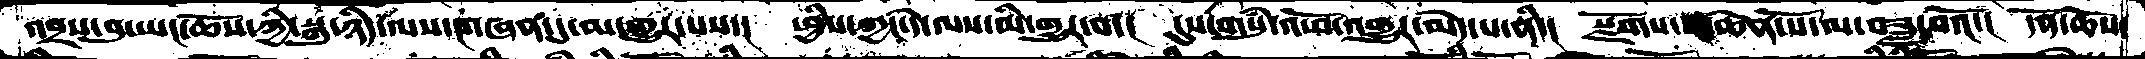འབྲས་བུ་ཡང་ཆོས་ཀྱི་སྐུ་ཉིད་ལས་གཞན་དུ་མ་གྱུར་པས་།  ཕྱིས་ཀྱང་དེ་ལས་མི་གྱུར་པ་།  དུས་གསུཾ་འཕོ་འགྱུར་མེད་པ་ནི་།  སྫོགས་    ཆེན་པོ་ལ་བཟླ་བའོ་།  དོན་ཆོས་
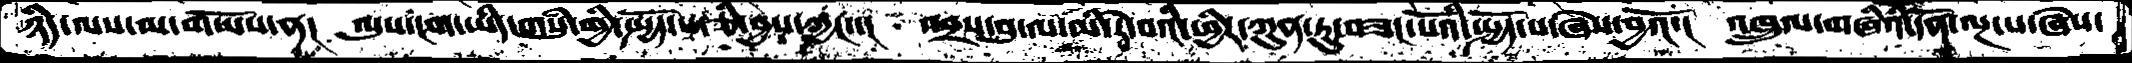ཉིད་ལས་མ་གཡོས་ན།  ལུས་ངག་ཡིད་གསུཾ་གྱི་སྤྱོད་པ་ཅི་བྱས་ཀྱང་་།  འབྲས་བུ་ལ་མི་རེ་བའི་ཕྱིར་ཀུན་ཏུ་བཟང་པོའི་སྤྱོད་པ་ཞེས་བྱའོ་།  འཁྲུལ་གཞིའི་དོན་ལྔ་པ་ཞེས་
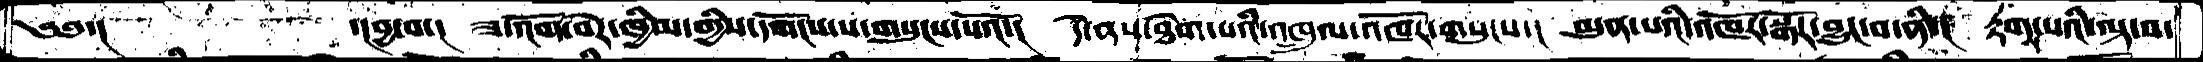༄༅་།       ་།བྱ་བ་།  ཟ་འོག་བེར་ཁྱིམ་གྱིས་དགོངས་པ་གསུངས་པའོ་།  དེ་ནས་ཐེག་པའི་འཁྲུལ་འཁོར་གསུངས་།  མུན་པའི་འཁོར་སྒོར་བྱུང་བ་ནི་།  རྟག་པའི་ལྟ་བ་
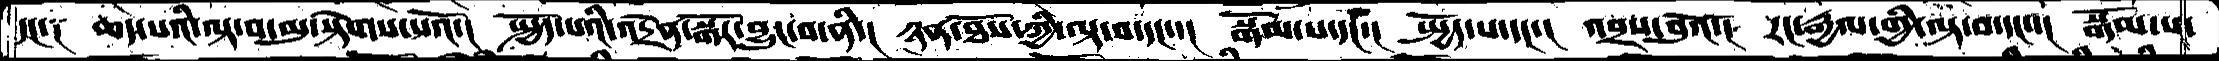དང་༑   ཆད་པའི་ལྟ་བ་མུ་སྟེགས་པའོ་།  སྤྱོད་པའི་འདྲེན་སྒོར་བྱུང་བ་ནི་།  ཉན་ཐོས་ཀྱི་ལྟ་བ་དང་་།  སྒོམ་པ་དང་།  སྤྱོད་པ་དང་།  འབྲས་བུའོ་།  རང་རྒྱལ་གྱི་ལྟ་བ་དང་་།  སྒོམ་པ་
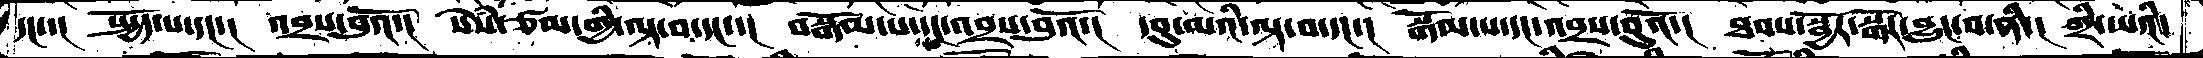དང་་།  སྤྱོད་པ་དང་།  འབྲས་བུའོ་།  སེཾས་ཙམ་གྱི་ལྟ་བ་དང་་།  བསྒོམ་པ་དང་འབྲས་བུའོ་།  དབུ་མའི་ལྟ་བ་དང་།  སྒོམ་པ་དང་འབྲས་བུའོ་།  ཐབས་སྦྱོར་སྒོར་བྱུང་བ་ནི་།  ཀྲི་ཡའི་
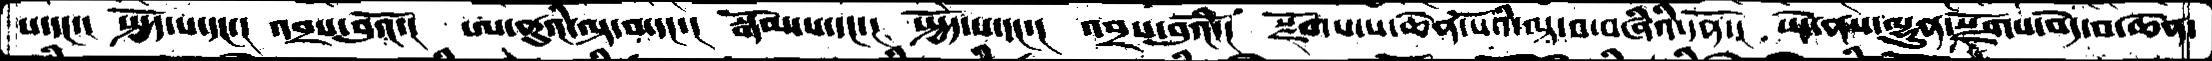པ་དང་་   སྤྱོད་པ་དང་།  འབྲས་བུའོ་།  ཨ་ནུའི་ལྟ་བ་དང་།  སྒོམ་པ་དང་།   སྤྱོད་པ་དང་།  འབྲས་བུའོ་།  སྫོགས་པ་ཆེན་པོའི་ལྟ་བ་བཞིའི་དོན་།  ཡེ་ནས་ལྷུན་སྫོགས་བདེ་བ་ཆེན་
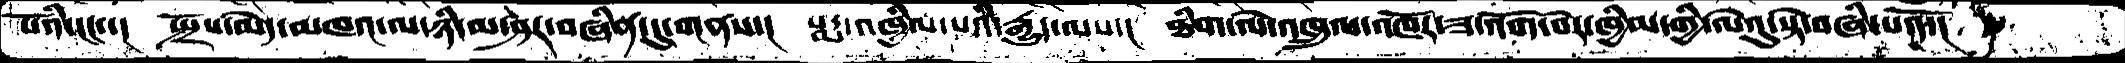པོའི་ངང་་།  སྤྲོས་མེད་མཁའ་ལ་ཉི་མ་ཤར་བཞིན་དུ་གནས་།  པདྨ་འཁྱིལ་པའི་རྒྱུད་ལས་།  ཐིག་ལེ་འཁྲུལ་འཁོར་ཟ་འོག་བེར་ཁྱིམ་གྱི་ལེའུ་སྟེ་བཞི་པའོ་།
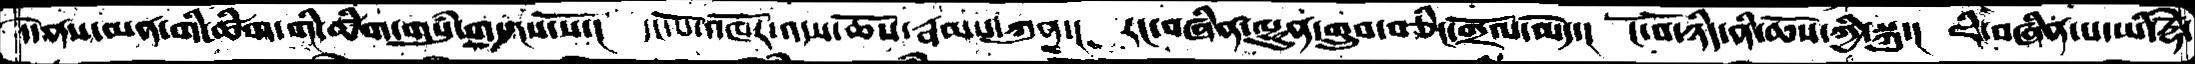དེ་ནས་མན་གི་ཚིག་གི་ཚིག་གསུཾ་གསུངས་སོ་།  དང་པོ་འཁོར་འདས་ཆོས་རྣམས་ཀུན་།  རང་བཞིན་ལྷུན་གྲུབ་བཅིང་གྲོལ་མེད་།  ངོ་བོ་ཉིད་ནི་ཆོས་ཀྱི་སྐུ་།  ཇི་བཞིན་པ་ཡི་རྡོེ་
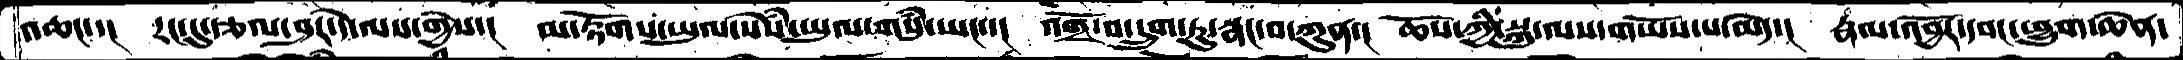འཆང་་།  རང་དུ་རྩལ་ཤར་དེ་ལས་གྱེས་།   མ་རྟོགས་ཡུལ་སེསཾ་ཡུལ་གསུཾ་ཡང་་།  འགྲོ་བ་དྲུག་ཏུ་སྣང་བ་ཀུན་།  ཆོས་ཀྱི་སྐུ་ལས་གཡོས་པ་མེད་།  རྣལ་འབྱོར་དབང་ཕྱུག་ཆེན་
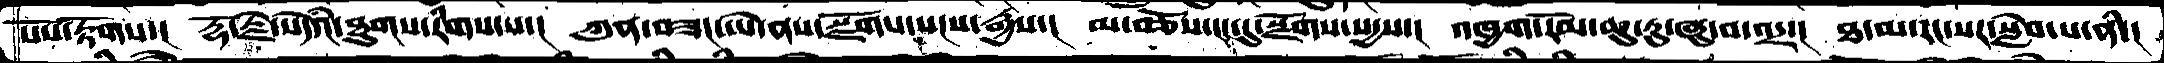པོས་རྟོགས་།  རྡོ་རྗེ་སེདའཾ་ཐུགས་རིགས་པ་།  ཀུན་བཟང་ཡེ་ནས་སྫོགས་སངས་རྒྱས་།  མ་བཅོས་ངང་དུ་སྫོགས་སདྱས་།  འཁྱག་རོམ་ཆུ་རུ་ཞུ་བ་འདྲ་།  ཐ་མ་རང་སར་སླེབ་པ་ནི་།
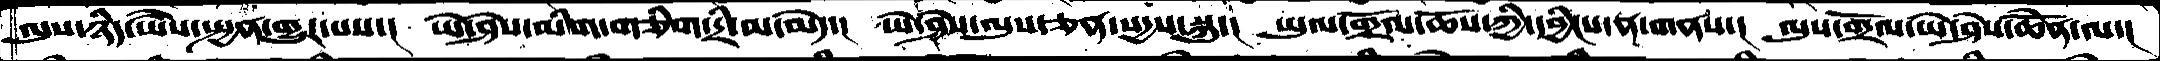ལུས་ཉིད་ཡཻས་སྤྱན་གྱུར་པས་།  ཡེ་ཤེས་མིག་གཅིག་དྲི་མ་མདེ་།  ཡེ་ཤེས་ལུས་ཅན་སདྱས་སྐུ་།  ཡུལ་གྲོལ་ཆོས་ཀྱི་དབྱིངས་ན་གནས་།  ལུས་གྲོལ་ཡེ་ཤེས་ཆེནོ་ལ་།
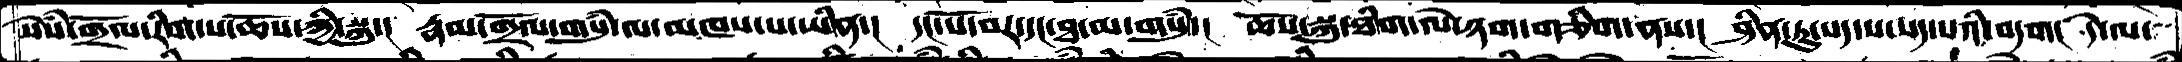སེཾས་གྲོལ་རིག་པ་ཆོས་ཀྱི་སྐུ་།  རྣམ་གྲོལ་གསུཾ་ལ་མཁས་པ་ཡིན་།  དང་པོ་བར་དང་ཐ་མ་གསུཾ་།  ཆོས་སྐུ་ཐིག་ལེ་ཉག་གཅིག་ནས་།  ཤིན་ཏུ་སད་པ་སད་པའི་བདག།  དེ་ལ་
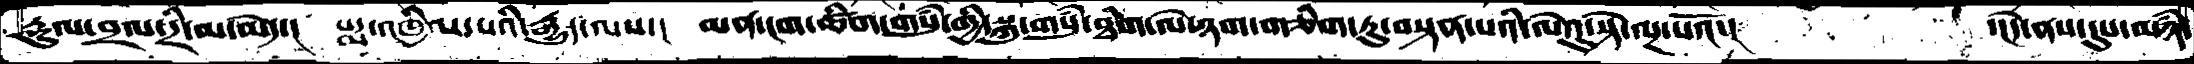རྡུལ་བྲལ་དྲི་མ་མེད་།  པདྨ་འཁྱིལ་པའི་རྒྱུད་ལས་།  མན་ངག་ཚིག་གསུཾ་གྱི་སྐུ་གསུཾ་ཐིག་ལེ་ཉག་གཅིག་ཏུ་བསྟན་པའི་ལེའུ་སྟེ་ལྔ་པའོ་།     ་།དེ་ནས་དུས་མཉཾ་
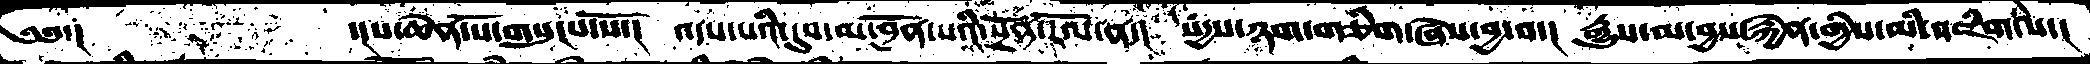༄༅་།      ་།པ་ཆེན་པོ་གསུངས་སོ་།  འདས་པའི་དུས་མ་བྱོན་པའི་སྔོན་རོལ་ན་།  སདྱས་ཉག་གཅིག་ཞེས་བྱ་བ་།  རྒྱུས་མ་བྱས་རྐྱེན་གྱིས་མི་འཇིག་པ་།
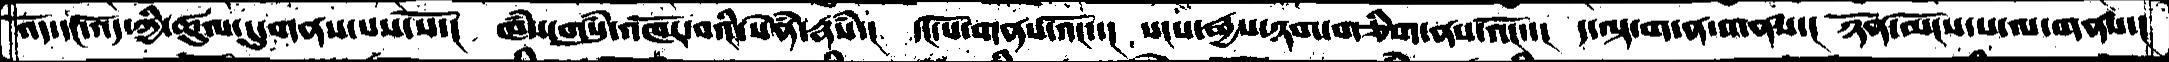འོད་དང་འོད་ཀྱི་ཚུལ་དུ་གནས་པས་སོ་།  ཁཾས་གསུཾ་འཁོར་བའི་སེཾན་རྣཾས་།  དང་པོ་གནས་འོང་་།  སངས་རྒྱས་ཉག་གཅིག་ནས་འོང་་།  ད་ལྟ་ག་ན་གནས་།  ཉོན་མོངས་པ་ལ་གནས་།
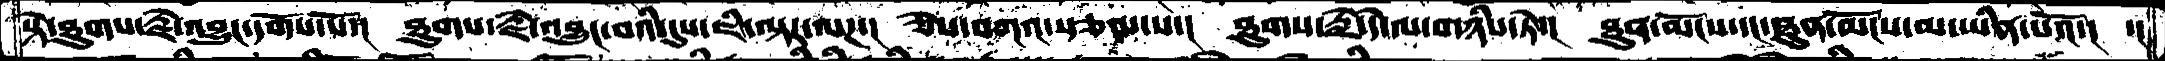སྟེ་ཐུགས་རྗེ་འབྱུང་དགོས་སོ་།།  ཐུགས་རྗེ་འཐུང་བའི་དུས་ཇི་ལྟར་ལཌ་།  ཅེས་བཀའ་སྩལ་པ་།  ཐུགས་རྗེ་དེ་ལ་གཉིས་ཏེ་།  ཐུན་མོངས་དང་ཐུན་མོངས་མ་ཡིན་པའོ་།  ་།
